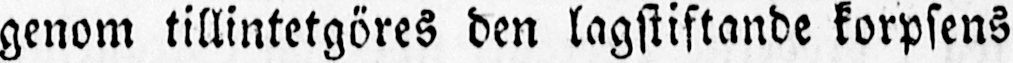genom tillintetgöres den lagstiftande korpsens
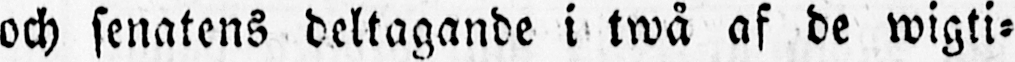och senatens deltagande i twå af de wigti-
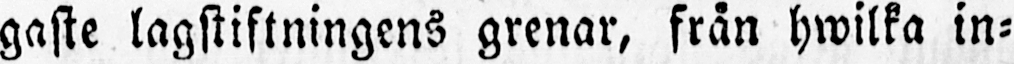gaste lagstiftningens grenar, från hwilka in-
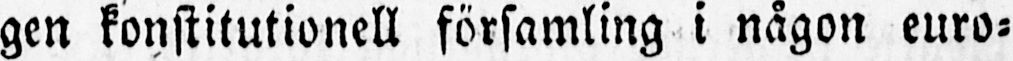gen konstitutionell församling i någon euro-
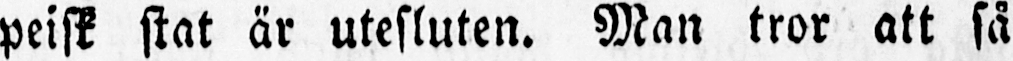peisk stat är utesluten. Man tror att så
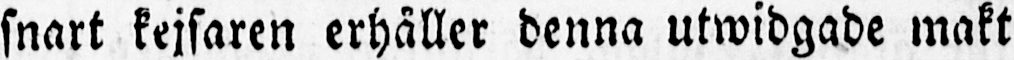snart kejsaren erhåller denna utwidgade makt
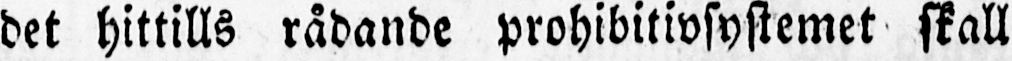det hittills rådande prohibitivsystemet skall
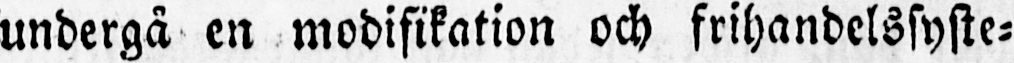undergå en modifikation och frihandelssyste-
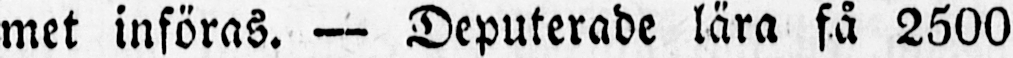met införas. — Deputerade lära få 2500
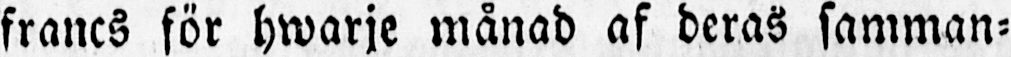francs för hwarje månad af deras samman-
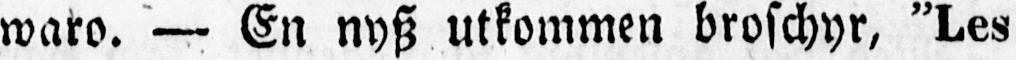waro. — En nysz utkommen broschyr, "Les
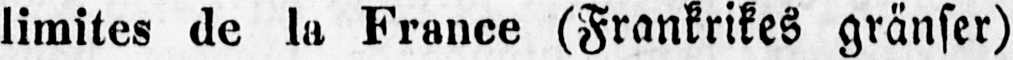limites de la France (Frankrikes gränser)
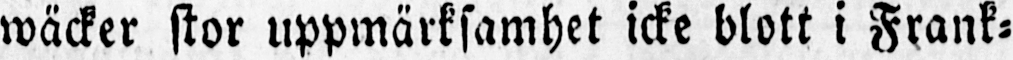wäcker stor uppmärksamhet icke blott i Frank-
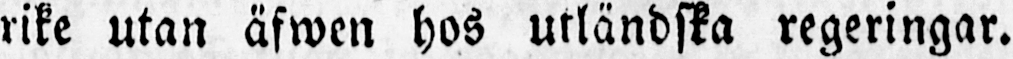rike utan äfwen hos utländska regeringar.
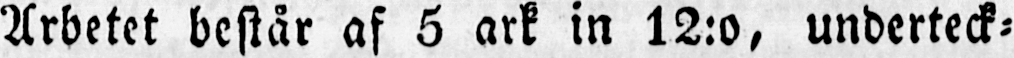Arbetet består af 5 ark in 12:o, underteck-
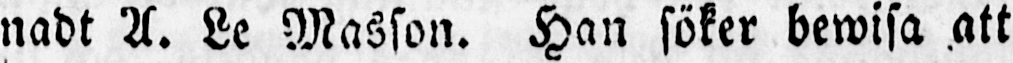nade A. Le Masson. Han söker bewisa att
